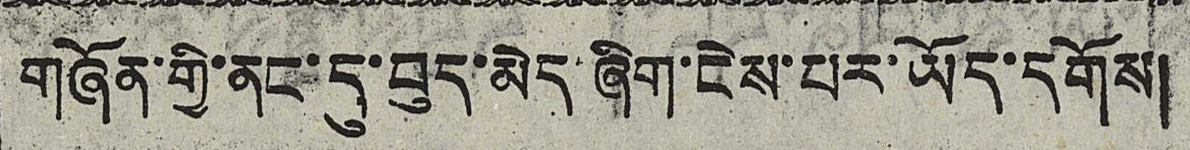གཞོན་གྱི་ནང་དུ་བྱེད་མེད་ཞིག་ངེས་པར་ཡོད་དགོས།
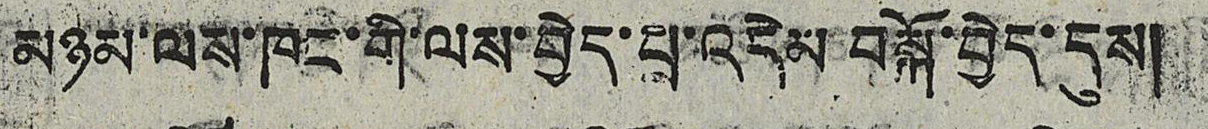མཉམ་ལས་ཁང་གི་ལས་བྱེད་པ་འདེམ་བསྐོ་བྱེད་དུས།
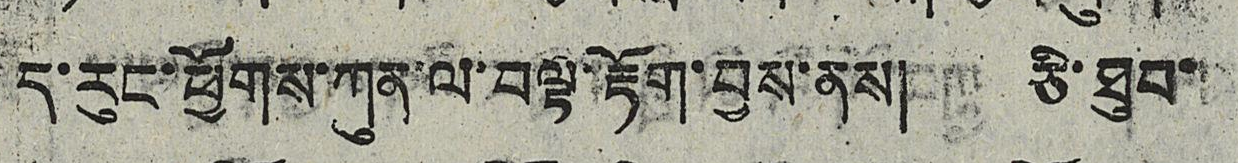ད་རུང་ཕྱོགས་ཀུན་ལ་བལྟ་རྟོག་བྱས་ནས། ཅི་ཐུབ་་
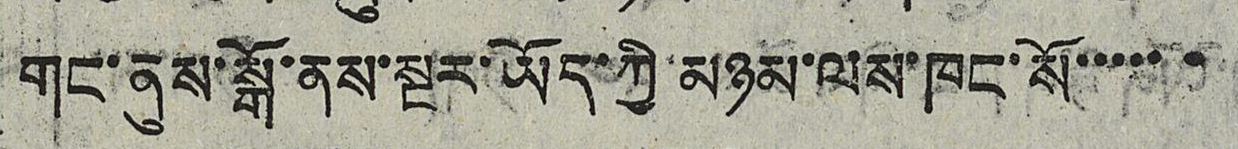གང་ནུས་སྒོ་ནས་སྔར་ཡོད་ཀྱི་མཉམ་ལས་ཁང་སོ་་་་་་་
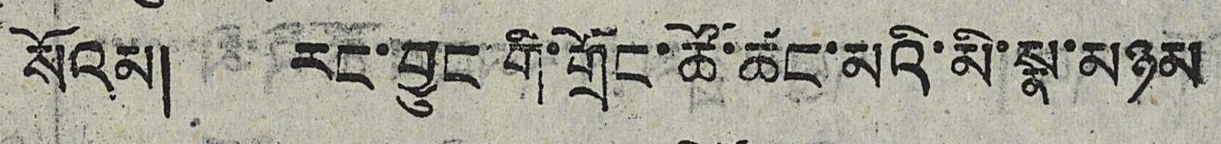སོའམ། རང་བྱུང་གི་གྲོང་ཚོ་ཚང་མའི་མི་སྣ་མཉམ
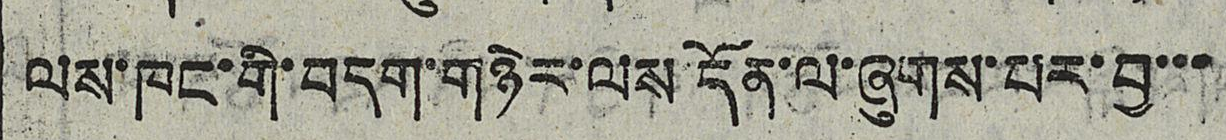ལས་ཁང་གི་བདག་གཉེར་ལས་དོན་ལ་ཞུགས་པར་བྱ་་
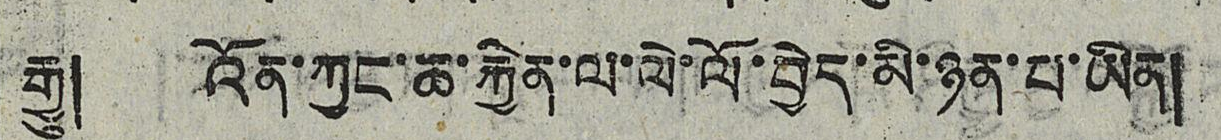རྒྱུ། འོན་ཀྱང་ཆ་རྐྱེན་ལ་ལེ་ལོ་བྱེད་མི་ཉན་པ་ཡིན།
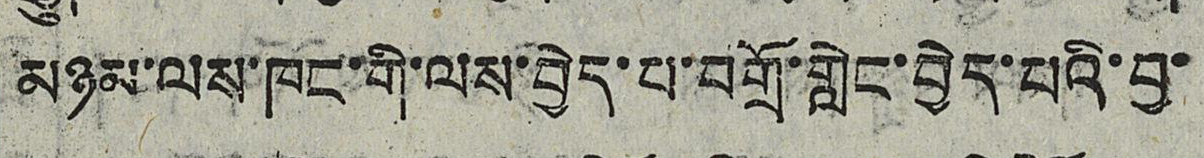མཉམ་ལས་ཁང་གི་ལས་བྱེད་པ་བགྲོ་གླེང་བྱེད་པའི་བྱ་
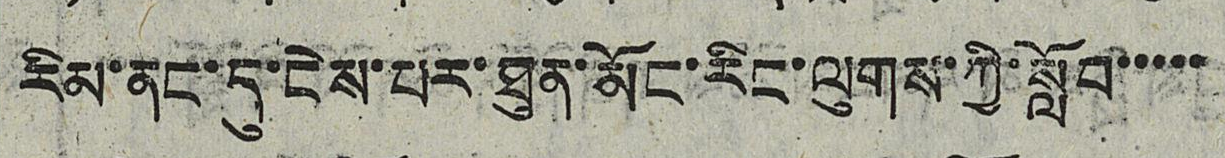རིམ་ནང་དུ་ངེས་པར་ཐུན་མོང་རིང་ལུགས་ཀྱི་སློབ་་་་
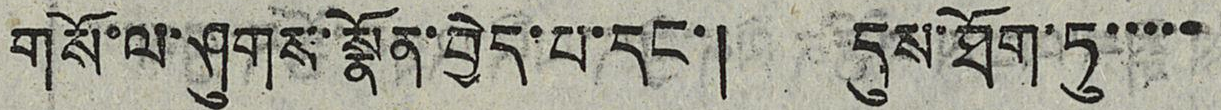གསོ་ལ་ཤུགས་སྣོན་བྱེད་པ་དང་། དུས་ཐོག་ཏུ་་་་་་
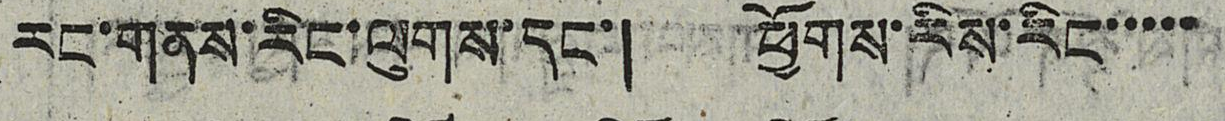རང་གནས་རིང་ལུགས་དང་། ཕྱོགས་རིས་རིང་་་་་
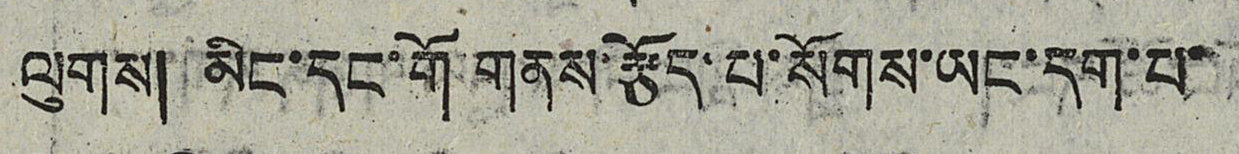ལུགས། མིང་དང་གོ་གནས་རྩོད་པ་སོགས་ཡང་དག་པ་་
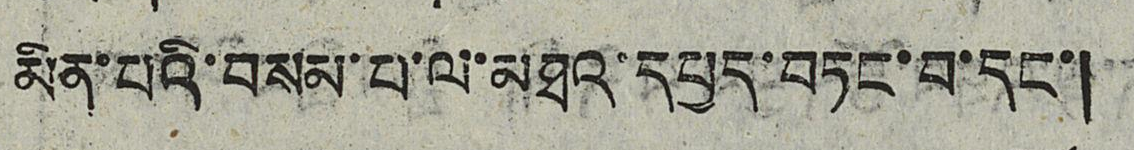མིན་པའི་བསམ་པ་ལ་མཐའ་དཔྱད་བཏང་བ་དང་།
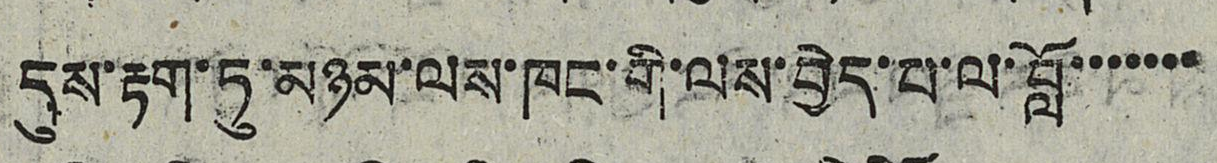དུས་རྟག་ཏུ་མཉམ་ལས་ཁང་གི་ལས་བྱེད་པ་ལ་བློ་་་་་་་
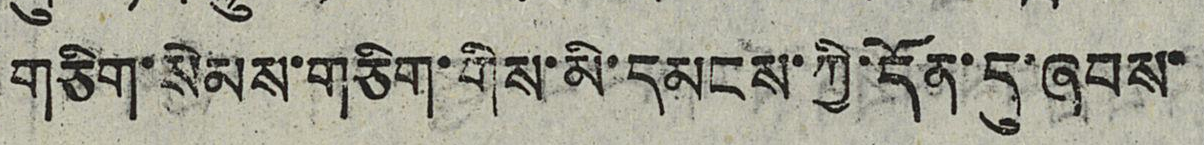གཅིག་སེམས་གཅིག་གིས་མི་དམངས་ཀྱི་དོན་དུ་ཞབས་
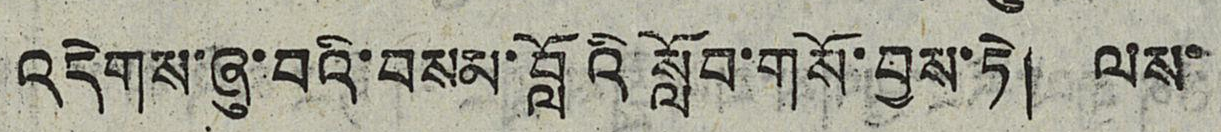འདེགས་ཞུ་བའི་བསམ་བློའི་སློབ་གསོ་བྱས་ཏེ། ལས་
